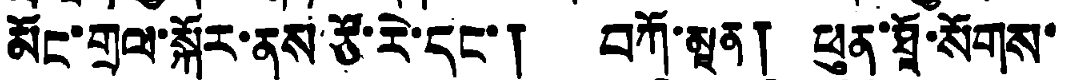མོང་གྲལ་སྐོར་ནས་ཙོ་རེ་དང་། བཀོ་མཱན། ཕུན་ཐཱོ་སོགས་
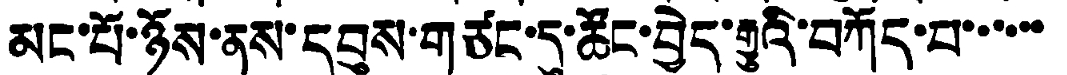མང་པོ་ཉོས་ནས་དབུས་གཙང་དུ་ཚོང་བྱེད་རྒྱུའི་བཀོད་པ་་་་་་
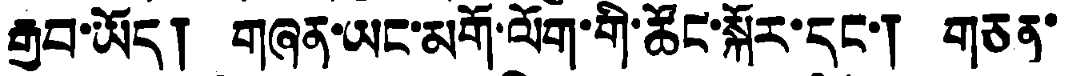རྒྱབ་ཡོད། གཞན་ཡང་མགོ་ལོག་གི་ཚོང་སྐོར་དང་། གཅན་
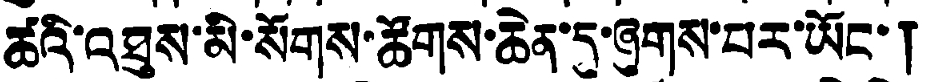ཚའི་འཐུས་མི་སོགས་ཚོགས་ཆེན་དུ་ཞུགས་པར་ཡོང་།
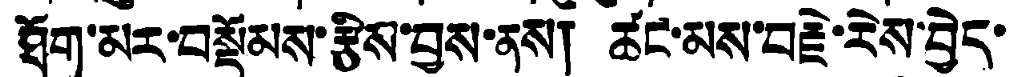ཐོག་མར་བསྡོམས་རྩིས་བྱས་ནས། ཚང་མས་བརྗེ་རེས་བྱེད་
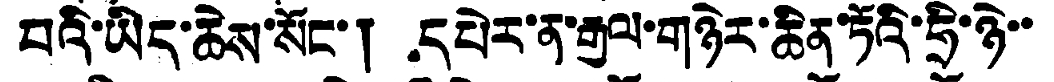བའི་ཡིད་ཆེས་སོང་། དཔེར་ན་རྒྱལ་གཉེར་ཆེན་ཏོའི་ཧྲི་ཉེ་
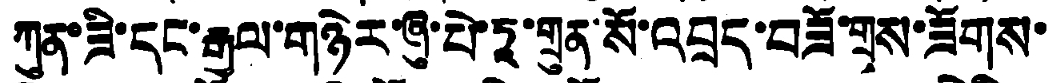ཀུན་ཟི་དང་རྒྱལ་གཉེར་ཞུ་པེ་ཏཱ་གྲུན་སོ་འབྲད་བཟོ་གྲས་ཟོགས་
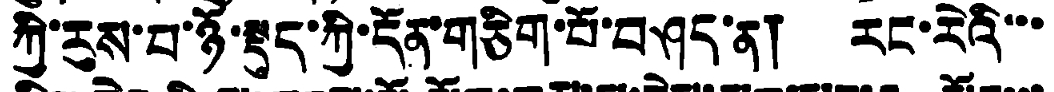ཀྱི་རུས་པ་ཉོ་སྡུད་ཀྱི་དོན་གཅིག་པོ་བཤད་ན། རང་རེའི་་་
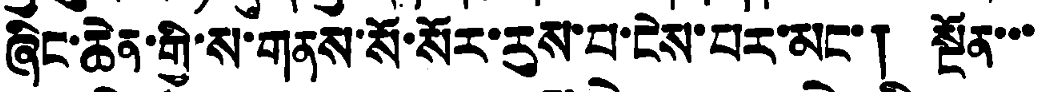ཞིང་ཆེན་གྱི་ས་གནས་སོ་སོར་རུས་པ་ངེས་པར་མང་། སྔོན་་་
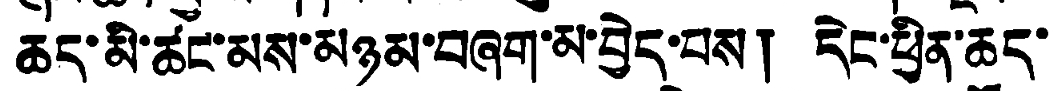ཆད་མི་ཚང་མས་མཉམ་བཞག་མ་བྱེད་པས། དེང་ཕྱིན་ཆད་
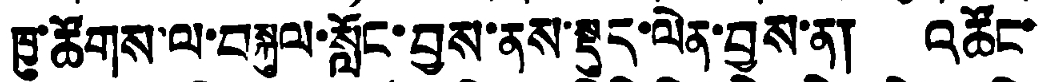ཁྱུ་ཚོགས་ལ་བསྐུལ་སློང་བྱས་ནས་སྡུད་ལེན་བྱས་ན། འཚོང་
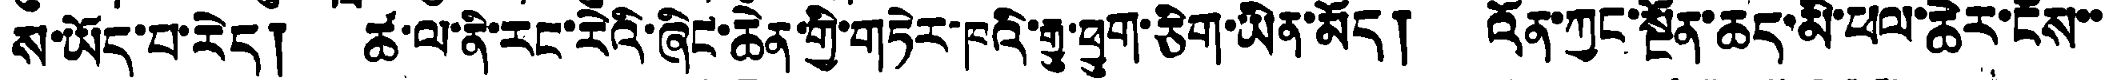ས་ཡོད་པ་རེད། ཚ་ལ་ནི་རང་རེའི་ཞིང་ཆེན་གྱི་གཏེར་ཁའི་རྒྱུ་ཕྱུག་ཅིག་ཡིན་མོད། འོན་ཀྱང་སྔོན་ཆད་མི་ཕལ་ཆེར་ངོས་་
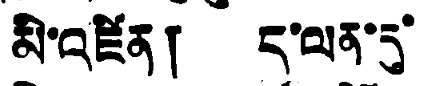མི་འཛིན། ད་ལན་དུ་
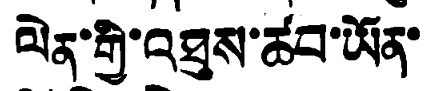ལེན་གྱི་འཐུས་ཚབ་ཡོན་
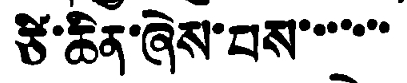ཙི་ཆིན་ཞེས་པས་་་་་་་
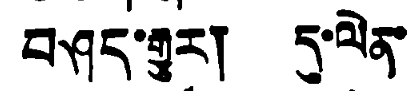བཤད་རྒྱུར། དུ་ལེན་
